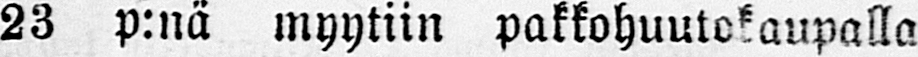23 p:nä myytiin pakkohuutokaupalla
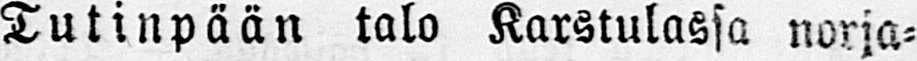Tutinpään talo Karstulassa norja-
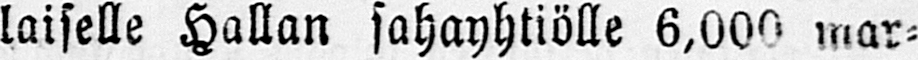laiselle Hallan sahayhtiölle 6,000 mar-
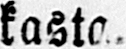kasta.
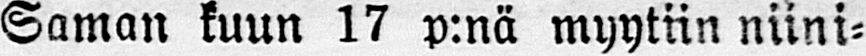Saman kuun 17 p:nä myytiin niini-
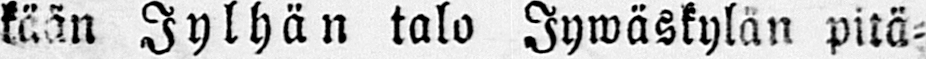kään Jylhän talo Jywäskylän pitä-
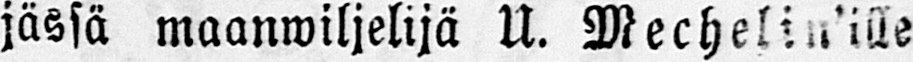jässä maanwiljelijä U. Mechelin'ille
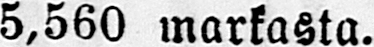5,560 markasta.
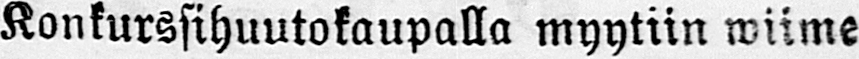Konkurssihuutokaupalla myytiin wiime
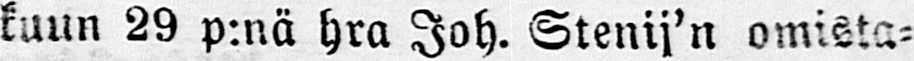kuun 29 p:nä hra Joh. Stenij'n omista-
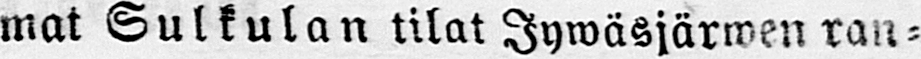mat Sulkulan tilat Jywäsjärwen ran-
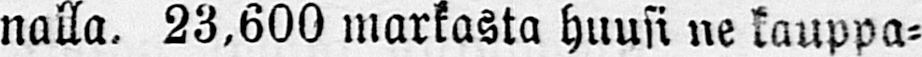nalla. 23,600 markasta huusi ne kauppa-
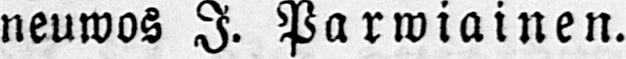neuwos I. Parwiainen.
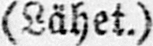(Lähet.)
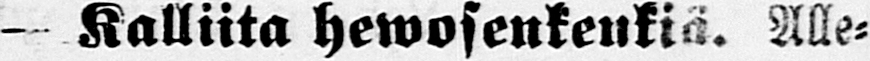- Kalliita hewosenkenki ä . Alle-
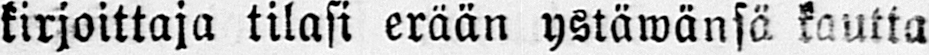kirjoittaja tilasi erään ystäwänsä kautta
